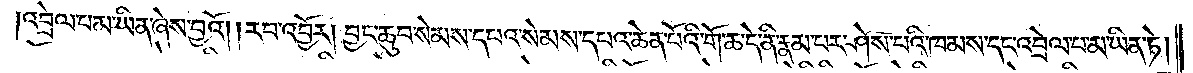འབྲེལ་པ་མ་ཡིན་ཞེས་བྱའོ། །རབ་འབྱོར། བྱང་ཆུབ་སེམས་དཔའ་སེམས་དཔའ་ཆེན་པོའི་གོ་ཆ་དེ་ནི་རྣམ་པར་ཤེས་པའི་ཁམས་དང་འབྲེལ་པ་མ་ཡིན་ཏེ།
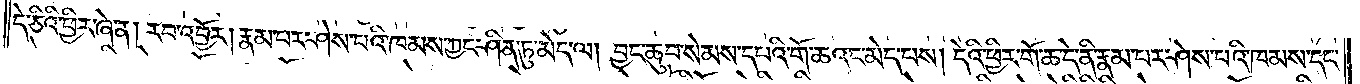དེ་ཅིའི་ཕྱིར་ཞེ་ན། རབ་འབྱོར། རྣམ་པར་ཤེས་པའི་ཁམས་ཀྱང་ཤིན་ཏུ་མེད་ལ། བྱང་ཆུབ་སེམས་དཔའི་གོ་ཆའང་མེད་པས། དེའི་ཕྱིར་གོ་ཆ་དེ་ནི་རྣམ་པར་ཤེས་པའི་ཁམས་དང་
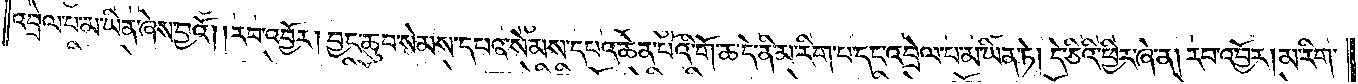འབྲེལ་པ་མ་ཡིན་ཞེས་བྱའོ། །རབ་འབྱོར། བྱང་ཆུབ་སེམས་དཔའ་སེམས་དཔའ་ཆེན་པོའི་གོ་ཆ་དེ་ནི་མ་རིག་པ་དང་འབྲེལ་པ་མ་ཡིན་ཏེ། དེ་ཅིའི་ཕྱིར་ཞེ་ན། རབ་འབྱོར། མ་རིག་
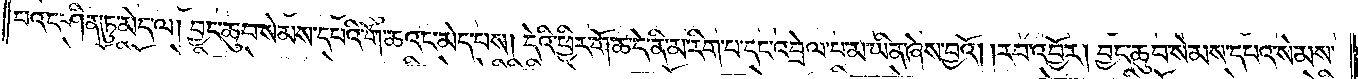པའང་ཤིན་ཏུ་མེད་ལ། བྱང་ཆུབ་སེམས་དཔའི་གོ་ཆའང་མེད་པས། དེའི་ཕྱིར་གོ་ཆ་དེ་ནི་མ་རིག་པ་དང་འབྲེལ་པ་མ་ཡིན་ཞེས་བྱའོ། །རབ་འབྱོར། བྱང་ཆུབ་སེམས་དཔའ་སེམས་
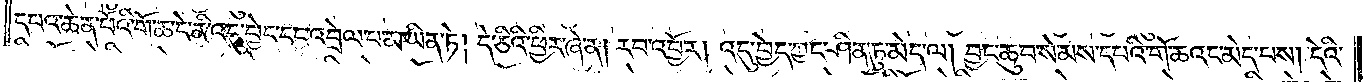དཔའ་ཆེན་པོའི་གོ་ཆ་དེ་ནི་འདུ་བྱེད་དང་འབྲེལ་པ་མ་ཡིན་ཏེ། དེ་ཅིའི་ཕྱིར་ཞེ་ན། རབ་འབྱོར། འདུ་བྱེད་ཀྱང་ཤིན་ཏུ་ མེད་ལ། བྱང་ཆུབ་སེམས་དཔའི་གོ་ཆའང་མེད་པས། དེའི་
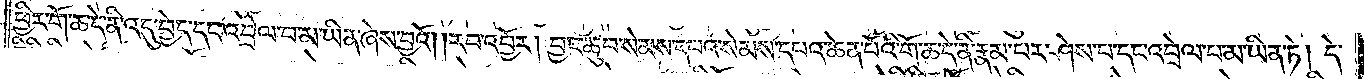ཕྱིར་གོ་ཆ་དེ་ནི་འདུ་བྱེད་དང་འབྲེལ་པ་མ་ཡིན་ཞེས་བྱའོ། །རབ་འབྱོར། བྱང་ཆུབ་སེམས་དཔའ་སེམས་དཔའ་ཆེན་པོའི་གོ་ཆ་དེ་ནི་རྣམ་པར་ཤེས་པ་དང་འབྲེལ་པ་མ་ཡིན་ཏེ། དེ་
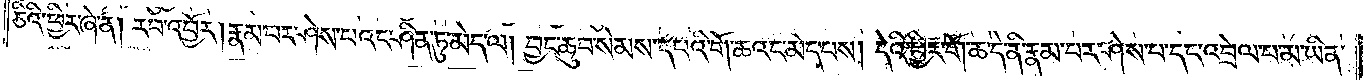ཅིའི་ཕྱིར་ཞེ་ན། རབ་འབྱོར། རྣམ་པར་ཤེས་པའང་ཤིན་ཏུ་མེད་ལ། བྱང་ཆུབ་སེམས་དཔའི་གོ་ཆའང་མེད་པས། དེའི་ཕྱིར་གོ་ཆ་དེ་ནི་རྣམ་པར་ཤེས་པ་དང་འབྲེལ་པ་མ་ཡིན་
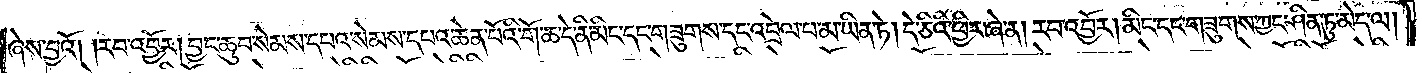ཞེས་བྱའོ། །རབ་འབྱོར། བྱང་ཆུབ་སེམས་དཔའ་སེམས་དཔའ་ཆེན་པོའི་གོ་ཆ་དེ་ནི་མིང་དང་གཟུགས་དང་འབྲེལ་པ་མ་ཡིན་ཏེ། དེ་ཅིའི་ཕྱིར་ཞེ་ན། རབ་འབྱོར། མིང་དང་གཟུགས་ཀྱང་ཤིན་ཏུ་མེད་ལ།
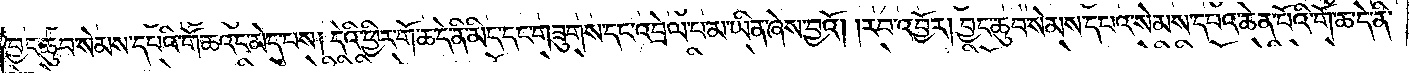བྱང་ཆུབ་སེམས་དཔའི་གོ་ཆའང་མེད་པས། དེའི་ཕྱིར་གོ་ཆ་དེ་ནི་མིང་དང་གཟུགས་དང་འབྲེལ་པ་མ་ཡིན་ཞེས་བྱའོ། །རབ་འབྱོར། བྱང་ཆུབ་སེམས་དཔའ་སེམས་དཔའ་ཆེན་པོའི་གོ་ཆ་དེ་ནི་
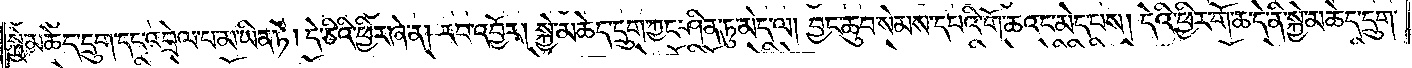སྐྱེ་མཆེད་དྲུག་དང་འབྲེལ་བ་མ་ཡིན་ཏེ། དེ་ཅིའི་ཕྱིར་ཞེ་ན། རབ་འབྱོར། སྐྱེ་མཆེད་དྲུག་ཀྱང་ཤིན་ཏུ་མེད་ལ། བྱང་ཆུབ་སེམས་དཔའི་གོ་ཆའང་མེད་པས། དེའི་ཕྱིར་གོ་ཆ་དེ་ནི་སྐྱེ་མཆེད་དྲུག་
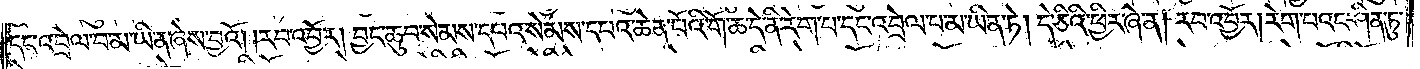དང་འབྲེལ་པ་མ་ཡིན་ཞེས་བྱའོ། །རབ་འབྱོར། བྱང་ཆུབ་སེམས་དཔའ་སེམས་དཔའ་ཆེན་པོའི་གོ་ཆ་དེ་ནི་རེག་པ་དང་འབྲེལ་པ་མ་ཡིན་ཏེ། དེ་ཅིའི་ཕྱིར་ཞེ་ན། རབ་འབྱོར། རེག་པའང་ཤིན་ཏུ་
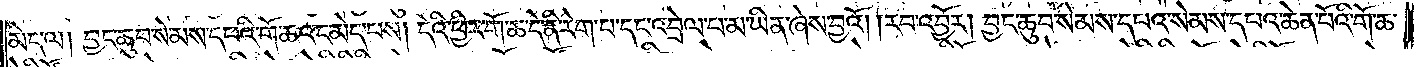མེད་ལ། བྱང་ཆུབ་སེམས་དཔའི་གོ་ཆའང་མེད་པས། དེའི་ཕྱིར་གོ་ཆ་དེ་ནི་རེག་པ་དང་འབྲེལ་བ་མ་ཡིན་ཞེས་བྱའོ། །རབ་འབྱོར། བྱང་ཆུབ་སེམས་དཔའ་སེམས་དཔའ་ཆེན་པོའི་གོ་ཆ་
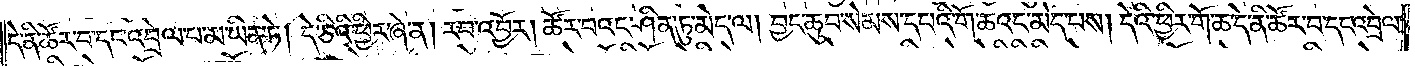དེ་ནི་ཚོར་བ་དང་འབྲེལ་པ་མ་ཡིན་ཏེ། དེ་ཅིའི་ཕྱིར་ཞེ་ན། རབ་འབྱོར། ཚོར་བའང་ཤིན་ཏུ་མེད་ལ། བྱང་ཆུབ་སེམས་དཔའི་གོ་ཆའང་མེད་པས། དེའི་ཕྱིར་གོ་ཆ་དེ་ནི་ཚོར་བ་དང་འབྲེལ་
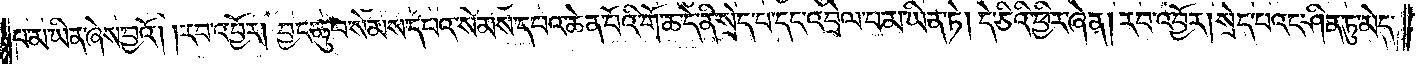པ་མ་ཡིན་ཞེས་བྱའོ། །རབ་འབྱོར། བྱང་ཆུབ་སེམས་དཔའ་སེམས་དཔའ་ཆེན་པོའི་གོ་ཆ་དེ་ནི་སྲེད་པ་དང་འབྲེལ་པ་མ་ཡིན་ཏེ། དེ་ཅིའི་ཕྱིར་ཞེ་ན། རབ་འབྱོར། སྲེད་པའང་ཤིན་ཏུ་མེད་
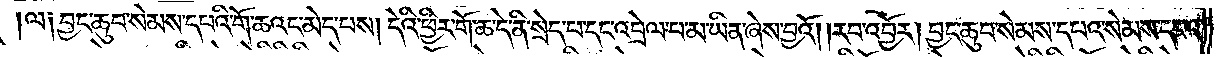ལ། བྱང་ཆུབ་སེམས་དཔའི་གོ་ཆའང་མེད་པས། དེའི་ཕྱིར་གོ་ཆ་དེ་ནི་སྲེད་པ་དང་འབྲེལ་པ་མ་ཡིན་ཞེས་བྱའོ། །རབ་འབྱོར། བྱང་ཆུབ་སེམས་དཔའ་སེམས་དཔའ་
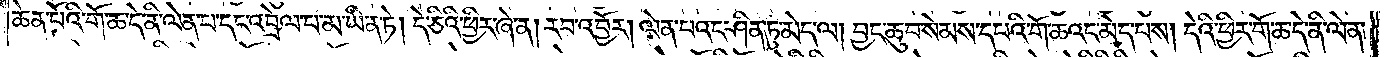ཆེན་པོའི་གོ་ཆ་དེ་ནི་ལེན་པ་དང་འབྲེལ་པ་མ་ཡིན་ཏེ། དེ་ཅིའི་ཕྱིར་ཞེ་ན། རབ་འབྱོར། ལེན་པའང་ཤིན་ཏུ་མེད་ལ། བྱང་ཆུབ་སེམས་དཔའི་གོ་ཆའང་མེད་པས། དེའི་ཕྱིར་གོ་ཆ་དེ་ནི་ལེན་
